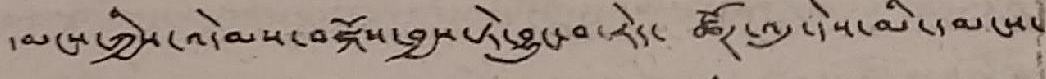དམངས་ཀྱིས་འདེམས་བསྐོས་བྱས་ཏེ་བྱུང་བ་རེད་ ཚོཊ་འདུ་དེས་མི་དམངས་
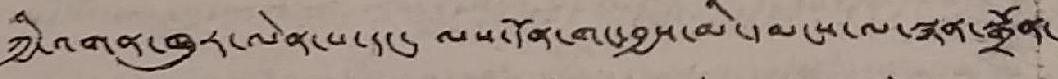ཀྱི་འགན་ཁུར་ལེན་པ་དང་ ལས་དོན་གང་བྱས་མི་དམངས་ལ་སྙན་སྒྲོན་
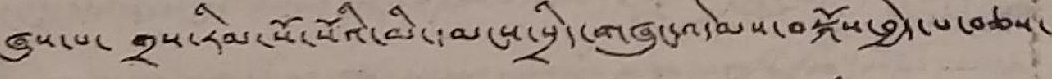ཞུས་པ་ གྲས་རིམ་སོ་སོའི་མི་དམངས་སྲིད་གཞུང་འདེམས་བསྐོས་བྱེད་པ་བཅས་
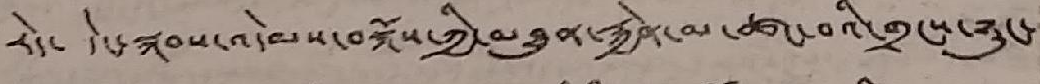རེད་ དེང་སྐབས་འདེམས་བསྐོས་ཀྱི་མཐུན་རྐྱེན་མ་ཚང་བའི་གྲངས་ཉུང་
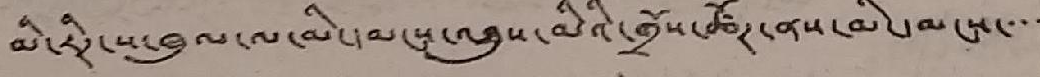མི་རིཊ་ས་ཁུལ་ལ་མི་དམངས་འཐུས་མིའི་གྲོས་ཚོཊ་ནས་མི་དམངས་་་
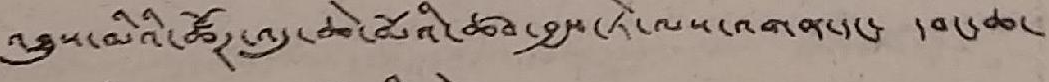འཐུས་མིའི་ཚོཊ་འདུ་ཆེ་མོའི་ཚབ་བྱས་ཏེ་ལས་འགན་དང་ དབང་ཆ་
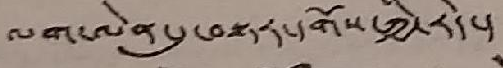ལག་ལེན་དུ་བསྟར་དགོས་ཀྱི་རེད་།
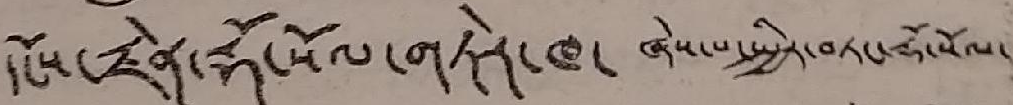དངོས་རྗེན་རྡོ་སོལ་གཏེར་ཁ་ ཞེས་པ་སྤྱིར་བཏང་རྡོ་སོལ་
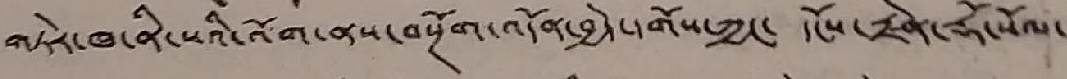གཏེར་ཁ་ནི་སའི་འོག་ནས་བསྔོག་འདོན་བྱེད་དགོས་ཀྱང་ དངོས་རྗེན་རྡོ་སོལ་
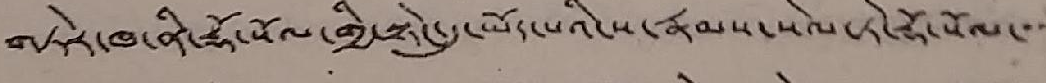གཏེར་ཁ་ནི་རྡོ་སོལ་གྱི་སྟེང་དུ་ཡོད་པའི་ས་རྣམས་སེལ་ཏེ་རྡོ་སོལ་་་
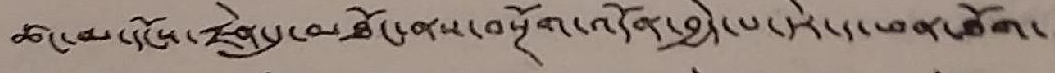ཚང་མ་དངོས་རྗེན་དུ་མཐོང་ནས་བསྔོཊ་འདོན་བྱེད་པ་དེར་ད་ཕན་ཐོག་
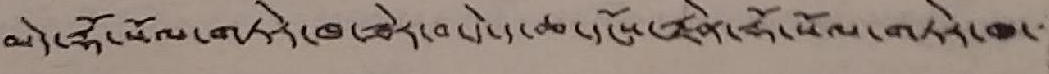མེད་རྡོ་སོལ་གཏེར་ཁ་ཟེར་བ་དེ་ད་ཆ་དངོས་རྗེན་རྡོ་སོལ་གཏེར་ཁ་
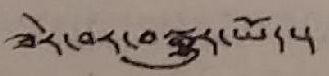ཟེར་བར་བསྒྱུར་ཡོད་།
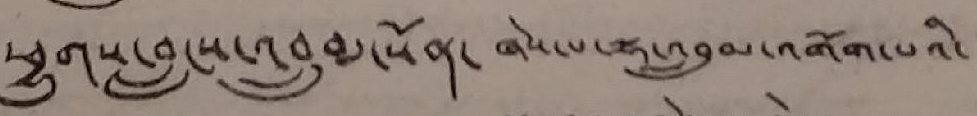ཕྱུགས་བླངས་འབྲུམ་སོན་ ཞེས་པ་ལྷ་འབྲུམ་འགོག་པའི་
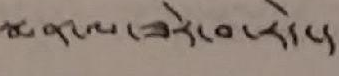སྨན་ལ་ཟེར་བ་རེད་།
